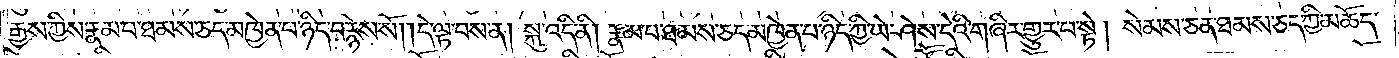རྒྱས་ཀྱིས་རྣམ་པ་ཐམས་ཅད་མཁྱེན་པ་ཉིད་བརྙེས་སོ། །དེ་ལྟ་བས་ན། སྐུ་འདི་ནི། རྣམ་པ་ཐམས་ཅད་མཁྱེན་པ་ཉིད་ཀྱི་ཡེ་ཤེས་དེའི་གཞིར་གྱུར་པ་སྟེ། སེམས་ཅན་ཐམས་ཅད་ཀྱི་མཆོད་
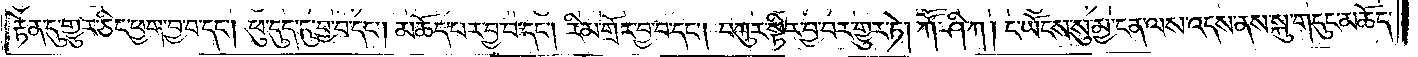རྟེན་དུ་གྱུར་ཅིང་ཕྱག་བྱ་བ་དང༌། ཕུ་དུད་དུ་བྱ་བ་དང༌། མཆོད་པར་བྱ་བ་དང༌། རིམ་གྲོར་བྱ་བ་དང༌། བཀུར་སྟིར་བྱ་བར་གྱུར་ཏོ། ཀཽ་ཤི་ཀ། ང་ཡོངས་སུ་མྱ་ངན་ལས་འདས་ནས་སྐུ་གདུང་མཆོད་
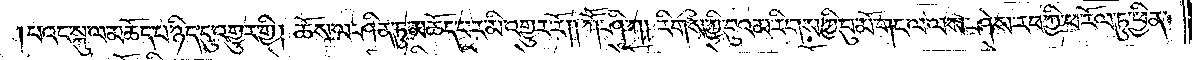པའང་སྐུ་ལ་མཆོད་པ་ཉིད་དུ་འགྱུར་གྱི། ཆོས་ལ་ཤིན་ཏུ་མཆོད་པར་མི་འགྱུར་རོ། ཀཽ་ཤི་ཀ། རིགས་ཀྱི་བུའམ་རིགས་ཀྱི་བུ་མོ་གང་ལ་ལས་ཤེས་རབ་ཀྱི་ཕ་རོལ་ཏུ་ཕྱིན་
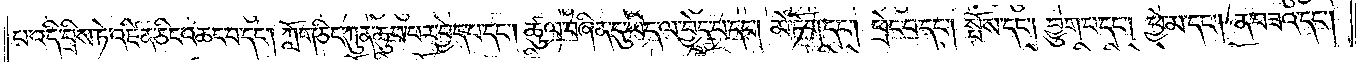པ་འདི་བྲིས་ཏེ་འཛིན་ཅིང་འཆང་བ་དང༌། ཀློག་ཅིང་ཀུན་ཆུབ་པར་བྱེད་པ་དང༌། ཚུལ་བཞིན་དུ་ཡིད་ལ་བྱེད་པ་དང༌། མེ་ཏོག་དང༌། འཕྲེང་བ་དང༌། སྤོས་དང༌། བྱུག་པ་དང༌། ཕྱེ་མ་དང༌། ན་བཟའ་དང༌།
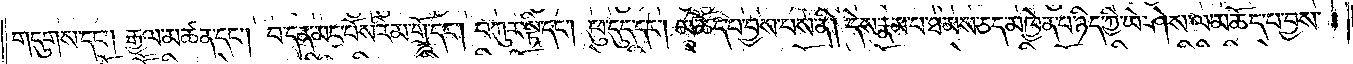གདུགས་དང༌། རྒྱལ་མཚན་དང༌། བ་དན་མང་པོས་རིམ་གྲོ་དང༌། བཀུར་སྟི་དང༌། ཕུ་དུད་དང༌། མཆོད་པ་བྱས་པས་ནི། དེས་རྣམ་པ་ཐམས་ཅད་མཁྱེན་པ་ཉིད་ཀྱི་ཡེ་ཤེས་ལ་མཆོད་པ་བྱས་
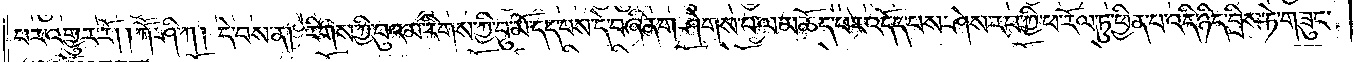པར་འགྱུར་རོ། །ཀཽ་ཤི་ཀ། དེ་བས་ན། རིགས་ཀྱི་བུའམ་རིགས་ཀྱི་བུ་མོ་དད་པས་དེ་བཞིན་གཤེགས་པ་ལ་མཆོད་པར་འདོད་པས་ཤེས་རབ་ཀྱི་ཕ་རོལ་ཏུ་ཕྱིན་པ་འདི་ཉིད་བྲིས་ཏེ་གཟུང་
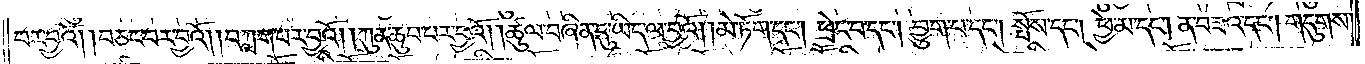བར་བྱའོ། །བཅང་བར་བྱའོ། །བཀླག་པར་བྱའོ། །ཀུན་ཆུབ་པར་བྱའོ། །ཚུལ་བཞིན་དུ་ཡིད་ལ་བྱའོ། །མེ་ཏོག་དང༌། ཕྲེང་བ་དང༌། བྱུག་པ་དང༌། སྤོས་དང༌། ཕྱེ་མ་དང༌། ན་བཟའ་དང༌། གདུགས་
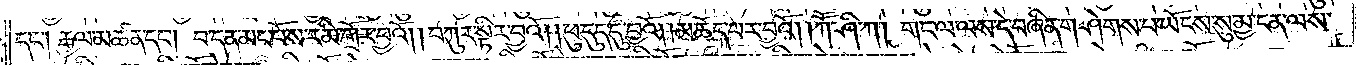དང༌། རྒྱལ་མཚན་དང༌། བ་དན་མང་པོས་རིམ་གྲོར་བྱའོ། །བཀུར་སྟིར་བྱའོ། །ཕུ་དུད་དུ་བྱའོ། །མཆོད་པར་བྱའོ། །ཀཽ་ཤི་ཀ། གང་ལ་ལས་དེ་བཞིན་གཤེགས་པ་ཡོངས་སུ་མྱ་ངན་ལས་
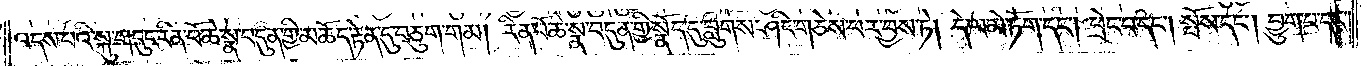འདས་པའི་སྐུ་གདུང་རིན་པོ་ཆེ་སྣ་བདུན་གྱི་མཆོད་རྟེན་དུ་བཅུག་གམ། རིན་པོ་ཆེ་སྣ་བདུན་གྱི་སྣོད་དུ་བླུགས་ཤིང་གཅེས་པར་བྱས་ཏེ། དེ་ལ་མེ་ཏོག་དང༌། ཕྲེང་བ་དང༌། སྤོས་དང༌། བྱུག་པ་དང༌།
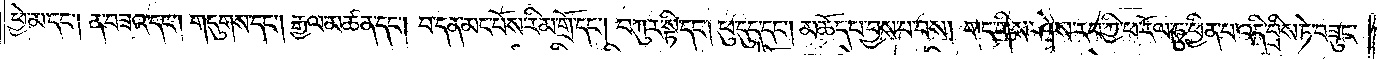ཕྱེ་མ་དང༌། ན་བཟའ་དང༌། གདུགས་དང༌། རྒྱལ་མཚན་དང༌། བ་དན་མང་པོས་རིམ་གྲོ་དང༌། བཀུར་སྟི་དང༌། ཕུ་དུད་དང༌། མཆོད་པ་བྱས་པ་བས། གང་གིས་ཤེས་རབ་ཀྱི་ཕ་རོལ་ཏུ་ཕྱིན་པ་འདི་བྲིས་ཏེ། གཟུང་
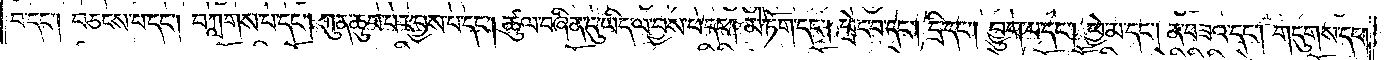བ་དང༌། བཅངས་པ་དང༌། བཀླགས་པ་དང༌། ཀུན་ཆུབ་པར་བྱས་པ་དང༌། ཚུལ་བཞིན་དུ་ཡིད་ལ་བྱས་པ་དང༌། མེ་ཏོག་དང༌། ཕྲེང་བ་དང༌། དྲི་དང༌། བྱུག་པ་དང༌། ཕྱེ་མ་དང༌། ན་བཟའ་དང༌། གདུགས་དང༌།
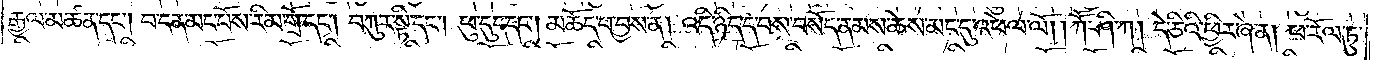རྒྱལ་མཚན་དང༌། བ་དན་མང་པོས་རིམ་གྲོ་དང༌། བཀུར་སྟི་དང༌། ཕུ་དུད་དང༌། མཆོད་པ་བྱས་ན། འདི་ཉིད་དེ་བས་བསོད་ནམས་ཆེས་མང་དུ་འཕེལ་ལོ། །ཀཽ་ཤི་ཀ། དེ་ཅིའི་ཕྱིར་ཞེ་ན། ཕ་རོལ་ཏུ་
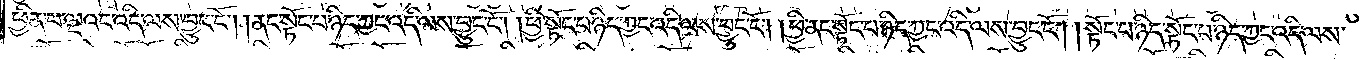ཕྱིན་པ་ལྔའང་འདི་ལས་བྱུང་ངོ༌། །ནང་སྟོང་པ་ཉིད་ཀྱང་འདི་ལས་བྱུང་ངོ༌། །ཕྱི་སྟོང་པ་ཉིད་ཀྱང་འདི་ལས་བྱུང་ངོ༌། །ཕྱི་ནང་སྟོང་པ་ཉིད་ཀྱང་འདི་ལས་བྱུང་ངོ༌། །སྟོང་པ་ཉིད་སྟོང་པ་ཉིད་ཀྱང་འདི་ལས་
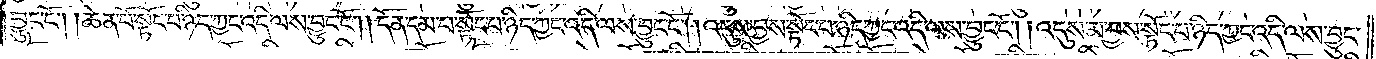བྱུང་ངོ༌། །ཆེན་པོ་སྟོང་པ་ཉིད་ཀྱང་འདི་ལས་བྱུང་ངོ༌། །དོན་དམ་པ་སྟོང་པ་ཉིད་ཀྱང་འདི་ལས་བྱུང་ངོ༌། །འདུས་བྱས་སྟོང་པ་ཉིད་ཀྱང་འདི་ལས་བྱུང་ངོ༌། །འདུས་མ་བྱས་སྟོང་པ་ཉིད་ཀྱང་འདི་ལས་བྱུང་
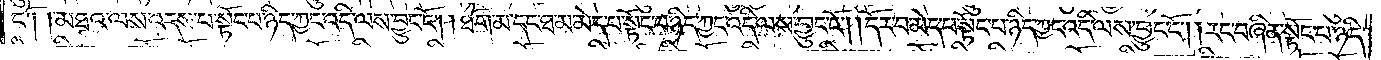ངོ༌། །མཐའ་ལས་འདས་པ་སྟོང་པ་ཉིད་ཀྱང་འདི་ལས་བྱུང་ངོ༌། །ཐོག་མ་དང་ཐ་མ་མེད་པ་སྟོང་པ་ཉིད་ཀྱང་འདི་ལས་བྱུང་ངོ༌། །དོར་བ་མེད་པ་སྟོང་པ་ཉིད་ཀྱང་འདི་ལས་བྱུང་ངོ༌། །རང་བཞིན་སྟོང་པ་ཉིད་
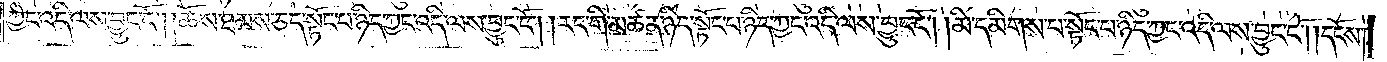ཀྱང་འདི་ལས་བྱུང་ངོ༌། །ཆོས་ཐམས་ཅད་སྟོང་པ་ཉིད་ཀྱང་འདི་ལས་བྱུང་ངོ༌། །རང་གི་མཚན་ཉིད་སྟོང་པ་ཉིད་ཀྱང་འདི་ལས་བྱུང་ངོ༌། །མི་དམིགས་པ་སྟོང་པ་ཉིད་ཀྱང་འདི་ལས་བྱུང་ངོ༌། །དངོས་
